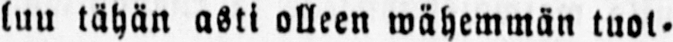luu tähän asti olleen wähemmän tuot-
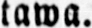tawa.
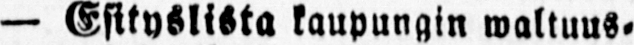— Esityslista kaupungin waltuus-
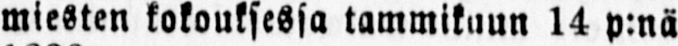miesten kokouksessa tammikuun 14 p.nä
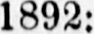1892:
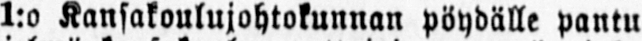1:o Kansakoulujohtokunnan pöydälle pantu
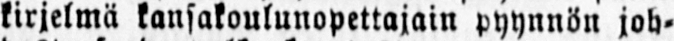kirjelmä kansakoulunopettajain pyynnön joh-
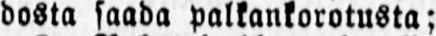dosta saada palkankorotusta;
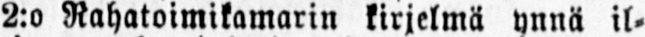2:o Rahatoimikamarin kirjelmä ynnä il-
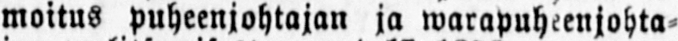moitus puheenjohtajan ja warapuheenjohta-
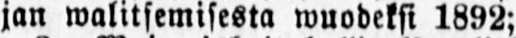jan walitsemisesta wuodeksi 1892;
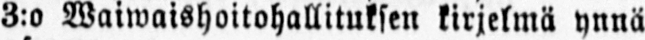3:o Waiwaishoitohallituksen kirjelmä ynnä
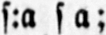s:a s a;
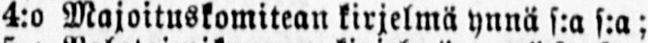4:o Majoituskomitean kirjelmä ynnä s:a s:a;
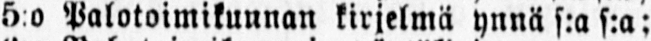5 o Palotoimikunnan kirjelmä ynnä s:a s:a
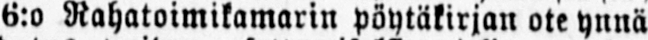6:o Rahatoimikamarin pöytäkirjan ote ynnä
